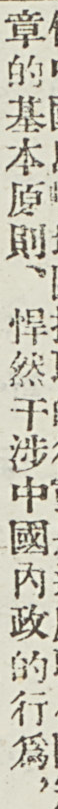章的基本原則、悍然干涉中國內政的行爲，
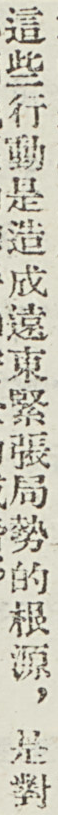這些行動是造成遠東緊張局勢的根源，是對
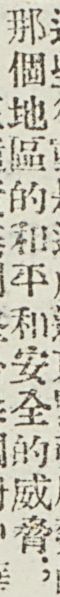那個地區的和平和安全的威脅；
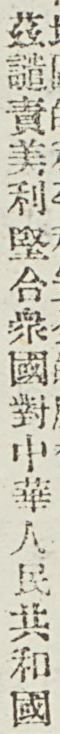茲譴責美利堅合衆國對中華人民共和國
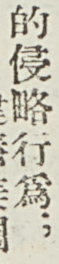的侵略行爲；
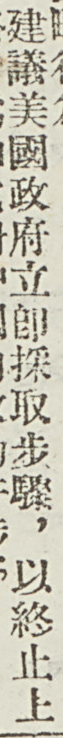建議美國政府立卽採取步驟，以終止上
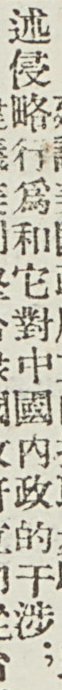述侵略行爲和他對中國內政的干涉；
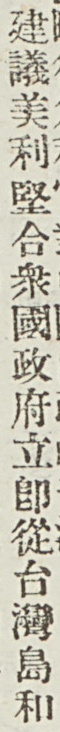建議美利堅合衆國政府立卽從台灣島和
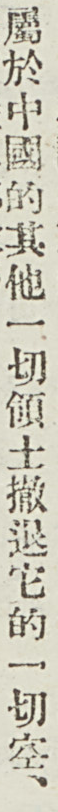屬於中國的其他一切領土撤退它的一切空、
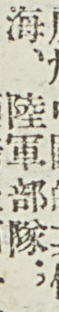海、陸軍部隊；
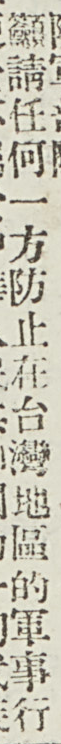籲請任何一方防止在台灣地區的軍事行
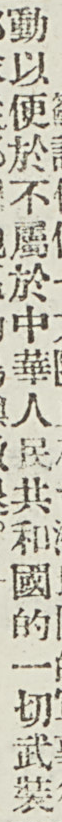動以便於不屬於中華人民共和國的一切武裝
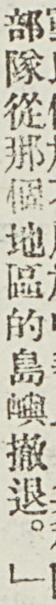部隊從那個地區的島嶼撤退。」
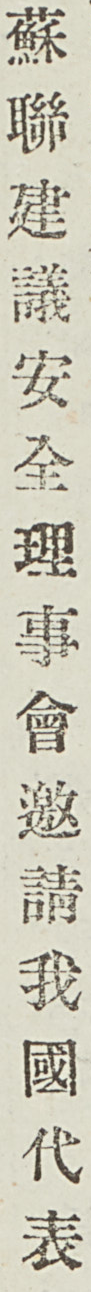蘇聯建議安全理事會邀請我國代表
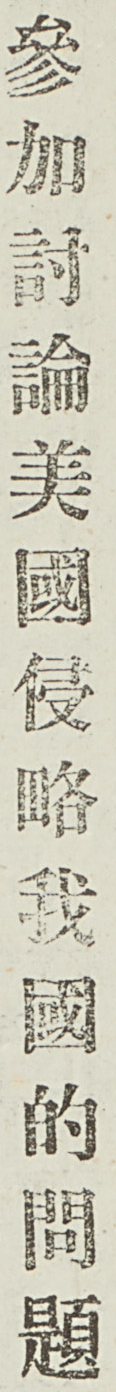參加討論美國侵略我國的問題
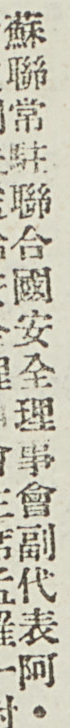蘇聯常駐聯合國安全理事會副代表阿・
